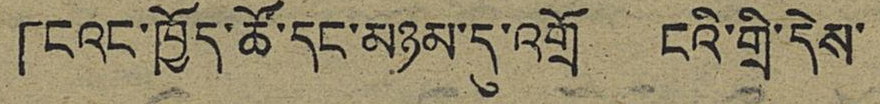「ངའང་ཁྱོད་ཚོ་དང་མཉམ་དུ་འགྲོ ངའི་གྲི་དེས་
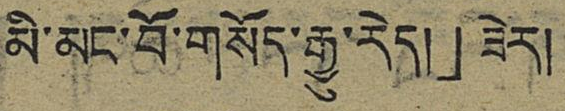མི་མང་བོ་གསོད་རྒྱུ་རེད།」 ཟེར།
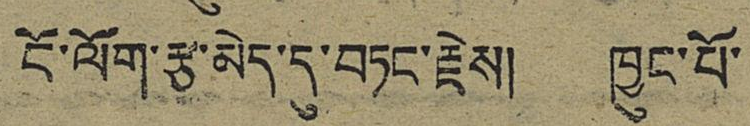ངོ་ལོག་རྩ་མེད་དུ་བཏང་རྗེས། ཁྱུང་པོ་
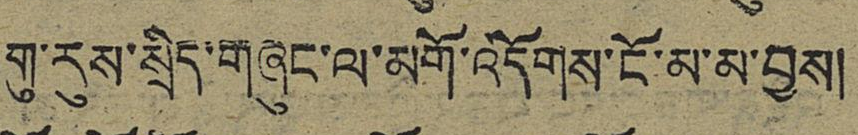གུ་རུས་སྲིད་གཞུང་ལ་མགོ་འདོགས་ངོ་མ་མ་བྱས།
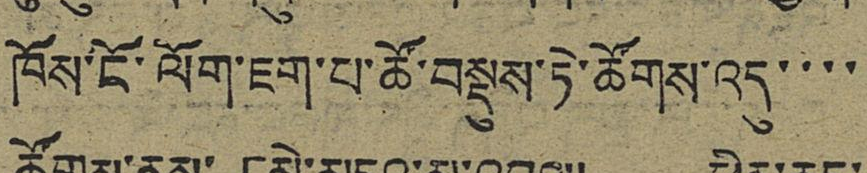ཁོས་ངོ་ལོག་ཇག་པ་ཚོ་བསྡུས་ཏེ་ཚོགས་འདུ་་་་
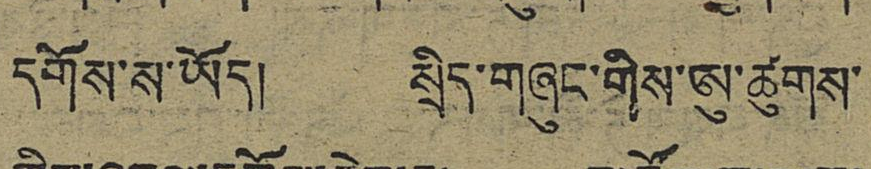དགོས་ས་ཡོད། སྲིད་གཞུང་གིས་ཨུ་ཚུགས་
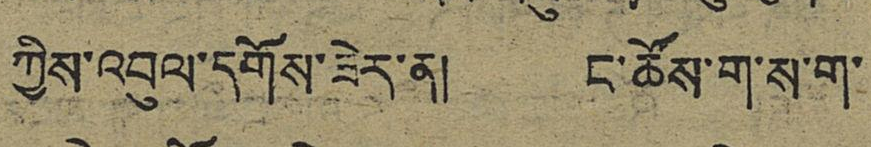ཀྱིས་འབུལ་དགོས་ཟེར་ན། ང་ཚོས་ག་ས་ག་
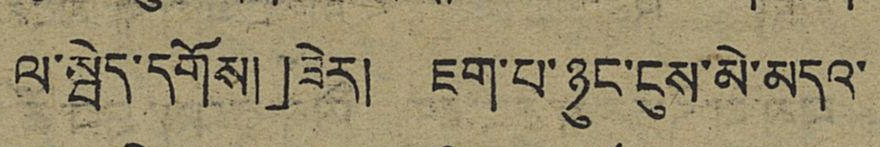ལ་སྦེད་དགོས།」ཟེར། ཇག་པ་ཉུང་ངུས་མེ་མདའ་
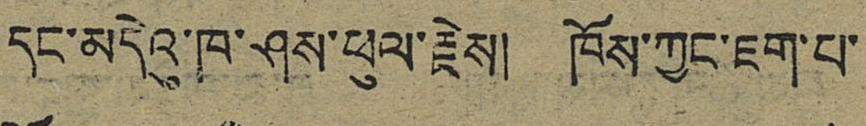དང་མདེའུ་ཁ་ཤས་ཕུལ་རྗེས། ཁོས་ཀྱང་ཇག་པ་
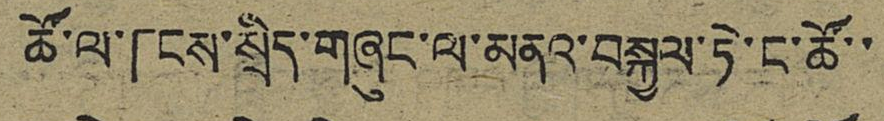ཚོ་ལ་「ངས་སྲིད་གཞུང་ལ་མནའ་བསྐྱལ་ཏེ་ང་ཚོ་་
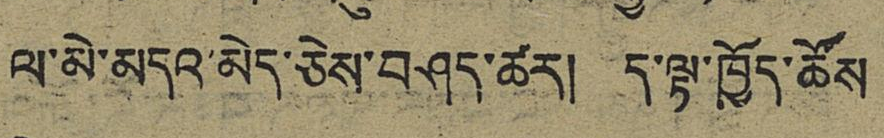ལ་མེ་མདའ་མེད་ཅེས་བཤད་ཚར། ད་ལྟ་ཁྱོད་ཚོས
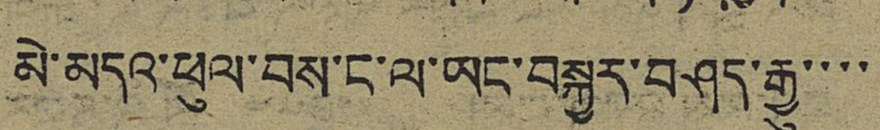མེ་མདའ་ཕུལ་བས་ང་ལ་ཡང་བསྐྱར་བཤད་རྒྱུ་་་་
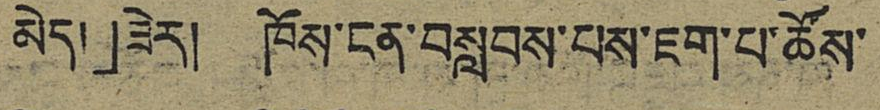མེད།」ཟེར། ཁོས་ངན་བསླབས་པས་ཇག་པ་ཚོས་
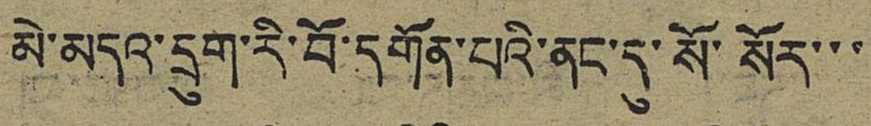མེ་མདའ་དྲུག་རི་བོ་དགོན་པའི་ནང་དུ་སོ་སོར་་
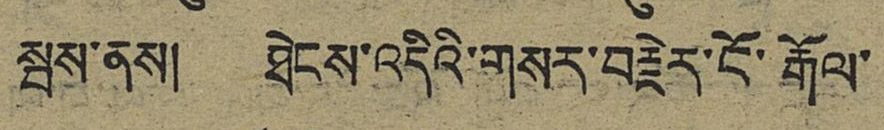སྦས་ནས། ཐེངས་འདིའི་གསར་བརྗེར་ངོ་རྒོལ་
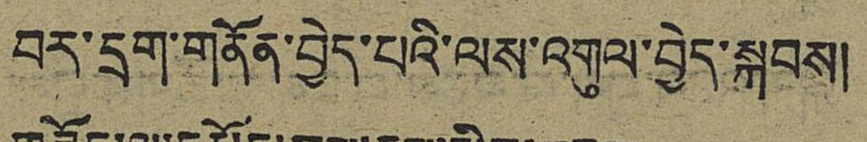བར་དྲག་གནོན་བྱེད་པའི་ལས་འགུལ་བྱེད་སྐབས།
